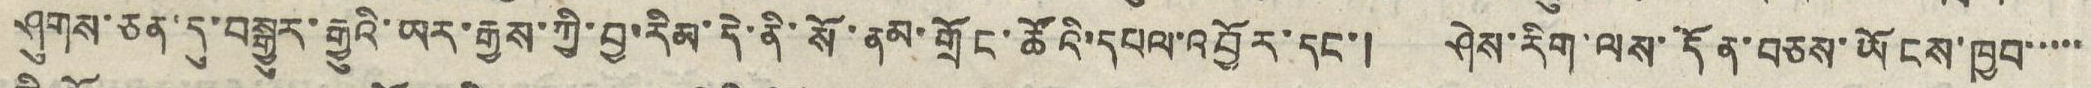ཤུགས་ཅན་དུ་བསྒྱུར་རྒྱུའི་ཡར་རྒྱས་ཀྱི་བྱ་རིམ་དེ་ནི་སོ་ནམ་གྲོང་ཚོའི་དཔལ་འབྱོར་དང་། ཤེས་རིག་ལས་དོན་བཅས་ཡོངས་ཁྱབ་་་་་
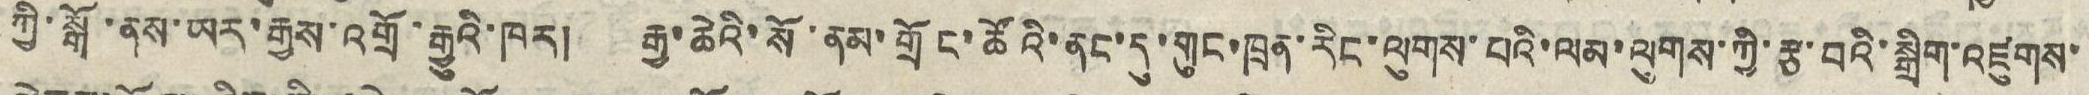ཀྱི་སྒོ་ནས་ཡར་རྒྱས་འགྲོ་རྒྱུའི་ཁར། རྒྱ་ཆེའི་སོ་ནམ་གྲོང་ཚོའི་ནང་དུ་གུང་ཁྲན་རིང་ལུགས་པའི་ལམ་ལུགས་ཀྱི་རྩ་བའི་སྒྲིག་འཛུགས་
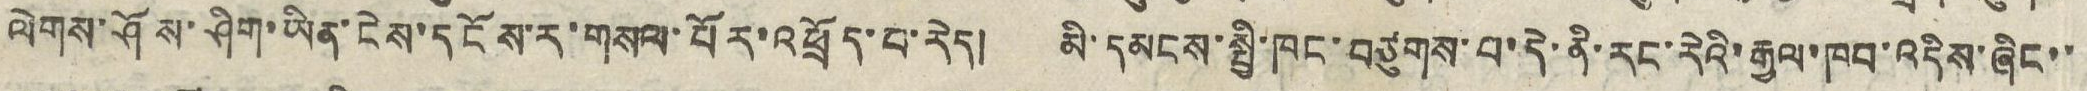ལེགས་ཤོས་ཤིག་ཡིན་ངེས་དངོས་ར་གསལ་པོར་འཕྲོད་པ་རེད། མི་དམངས་སྤྱི་ཁང་བཙུགས་པ་དེ་ནི་རང་རེའི་རྒྱལ་ཁབ་འདིས་ཞིང་་
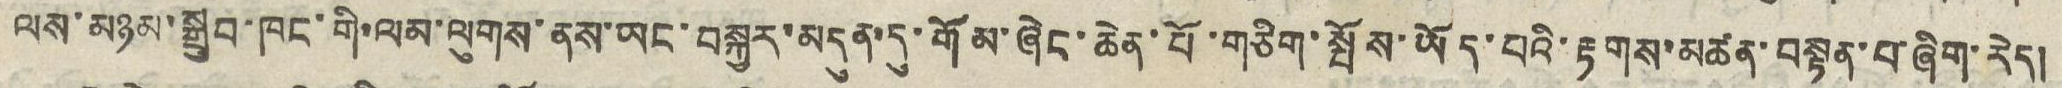ལས་མཉམ་སྒྲུབ་ཁང་གི་ལམ་ལུགས་ནས་ཡང་བསྐྱར་མདུན་དུ་གོམ་ཞེང་ཆེན་པོ་གཅིག་སྤོས་ཡོད་པའི་རྟགས་མཚན་བསྟན་པ་ཞིག་རེད།
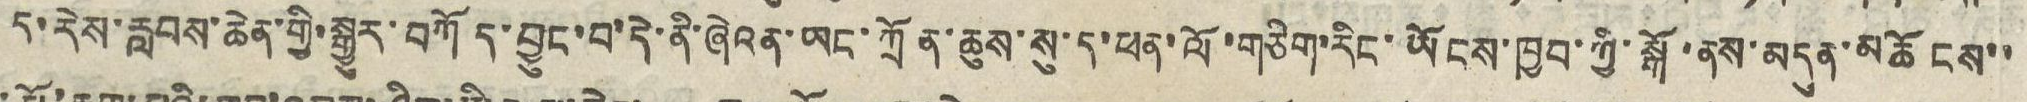ད་རེས་རླབས་ཆེན་གྱི་སྒྱུར་བཀོད་བྱུང་བ་དེ་ནི་ཞེའན་ཡང་ཀྲོན་ཆུས་སུ་ད་ཕན་ལོ་གཅིག་རིང་ཡོངས་ཁྱབ་ཀྱི་སྒོ་ནས་མདུན་མཆོངས་་
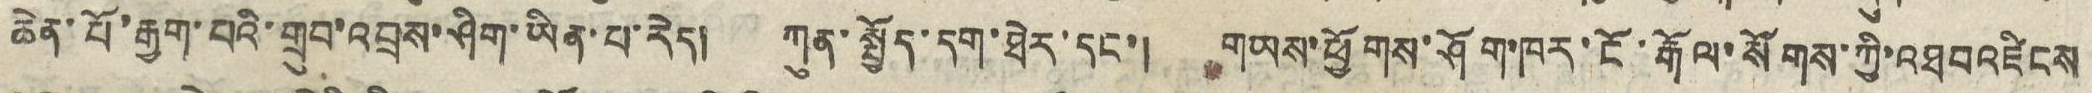ཆེན་པོ་རྒྱག་པའི་གྲུབ་འབྲས་ཤིག་ཡིན་པ་རེད། ཀུན་སྤྱོད་དག་ཐེར་དང་། གཡས་ཕྱོགས་ཤོག་ཁར་ངོ་རྒོལ་སོགས་ཀྱི་འཐབ འཛིངས་
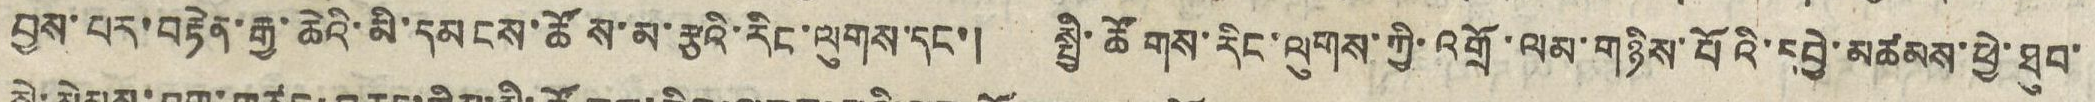བྱས་པར་བརྟེན་རྒྱ་ཆེའི་མི་དམངས་ཚོས་མ་རྩའི་རིང་ལུགས་དང་། སྤྱི་ཚོགས་རིང་ལུགས་ཀྱི་འགྲོ་ལམ་གཉིས་པོའི་དབྱེ་མཚམས་ཕྱེ་ཐུབ་
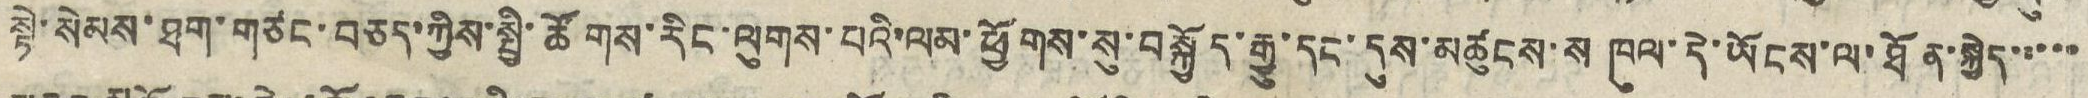སྟེ་སེམས་ཐག་གཙང་བཅད་ཀྱིས་སྤྱི་ཚོགས་རིང་ལུགས་པའི་ལམ་ཕྱོགས་སུ་བསྐྱོད་རྒྱུ་དང་དུས་མཚུངས་ས ཁུལ་དེ་ཡོངས་ལ་ཐོན་སྐྱེད་་་་་
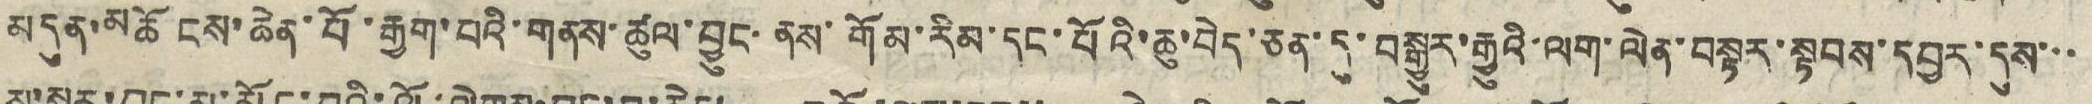མདུན་མཆོངས་ཆེན་པོ་རྒྱག་པའི་གནས་ཚུལ་བྱུང་ནས་གོམ་རིམ་དང་པོའི་ཆུ་བེད་ཅན་དུ་བསྒྱུར་རྒྱུའི་ལག་ལེན་བསྟར་སྟབས་དབྱར་དུས་་་
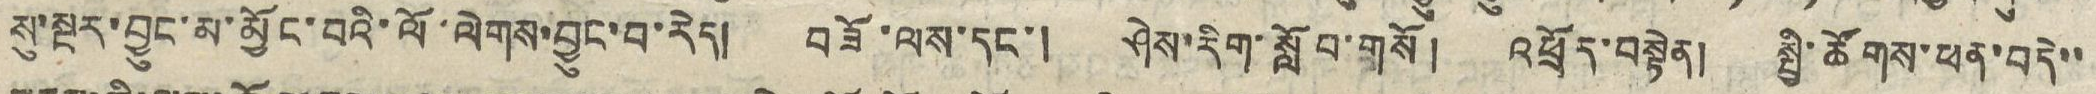སུ་སྔར་བྱུང་མ་མྱོང་བའི་ལོ་ལེགས་བྱུང་བ་རེད། བཟོ་ལས་དང་། ཤེས་རིག་སློབ་གསོ། འཕྲོད་བསྟེན། སྤྱི་ཚོགས་ཕན་བདེ་་
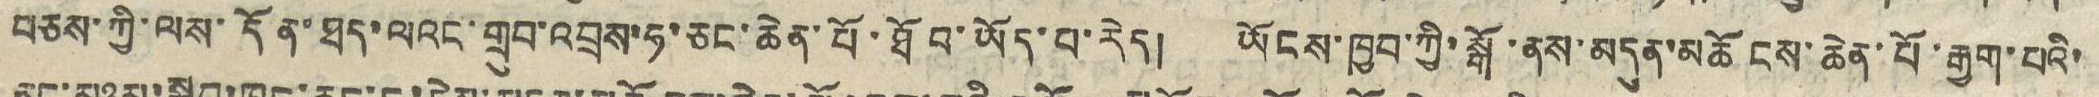བཅས་ཀྱི་ལས་དོན་ཐད་ལའང་གྲུབ་འབྲས་ཧ་ཅང་ཆེན་པོ་ཐོབ་ཡོད་པ་རེད། ཡོངས་ཁྱབ་ཀྱི་སྒོ་ནས་མདུན་མཆོངས་ཆེན་པོ་རྒྱག་པའི་
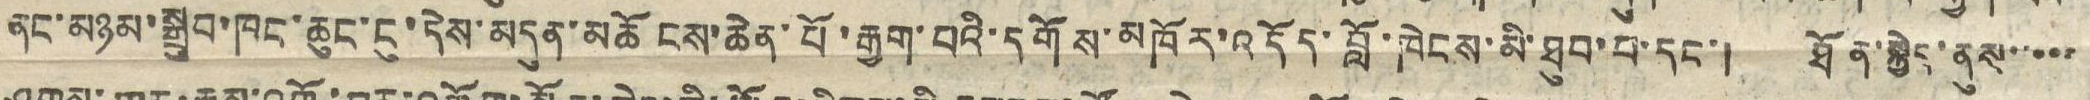ནང་མཉམ་སྒྲུབ་ཁང་ཆུང་ངུ་དེས་མདུན་མཆོངས་ཆེན་པོ་རྒྱག་པའི་དགོས་མཁོར་འདོད་བློ་ཁེངས་མི་ཐུབ་པ་དང་། ཐོན་སྐྱེད་ནུས་་་་་
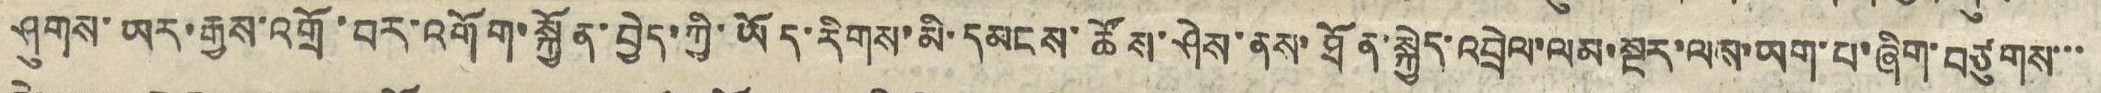ཤུགས་ཡར་རྒྱས་འགྲོ་བར་འགོག་སྐྱོན་བྱེད་ཀྱི་ཡོད་རིགས་མི་དམངས་ཚོས་ཤེས་ནས་ཐོན་སྐྱེད་འབྲེལ་ལམ་སྔར་ལས་ཡག་པ་ཞིག་བཙུགས་་་
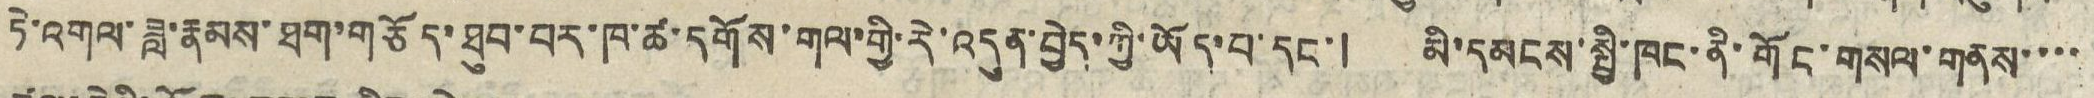ཏེ་འགལ་ཟླ་རྣམས་ཐག་གཅོད་ཐུབ་པར་ཁ་ཚ་དགོས་གལ་གྱི་རེ་འདུན་བྱེད་ཀྱི་ཡོད་པ་དང་། མི་དམངས་སྤྱི་ཁང་ནི་གོང་གསལ་གནས་་་་
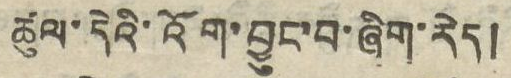ཚུལ་དེའི་འོག་བྱུང་བ་ཞིག་རེད།
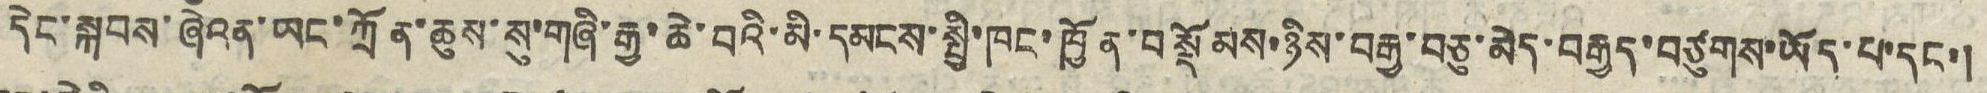དེང་སྐབས་ཞེའན་ཡང་ཀྲོན་ཆུས་སུ་གཞི་རྒྱ་ཆེ་བའི་མི་དམངས་སྤྱི་ཁང་ཁྱོན་བསྡོམས་ཉིས་བརྒྱ་བཅུ་མེད་བརྒྱད་བཙུགས་ཡོད་པ་དང་།
